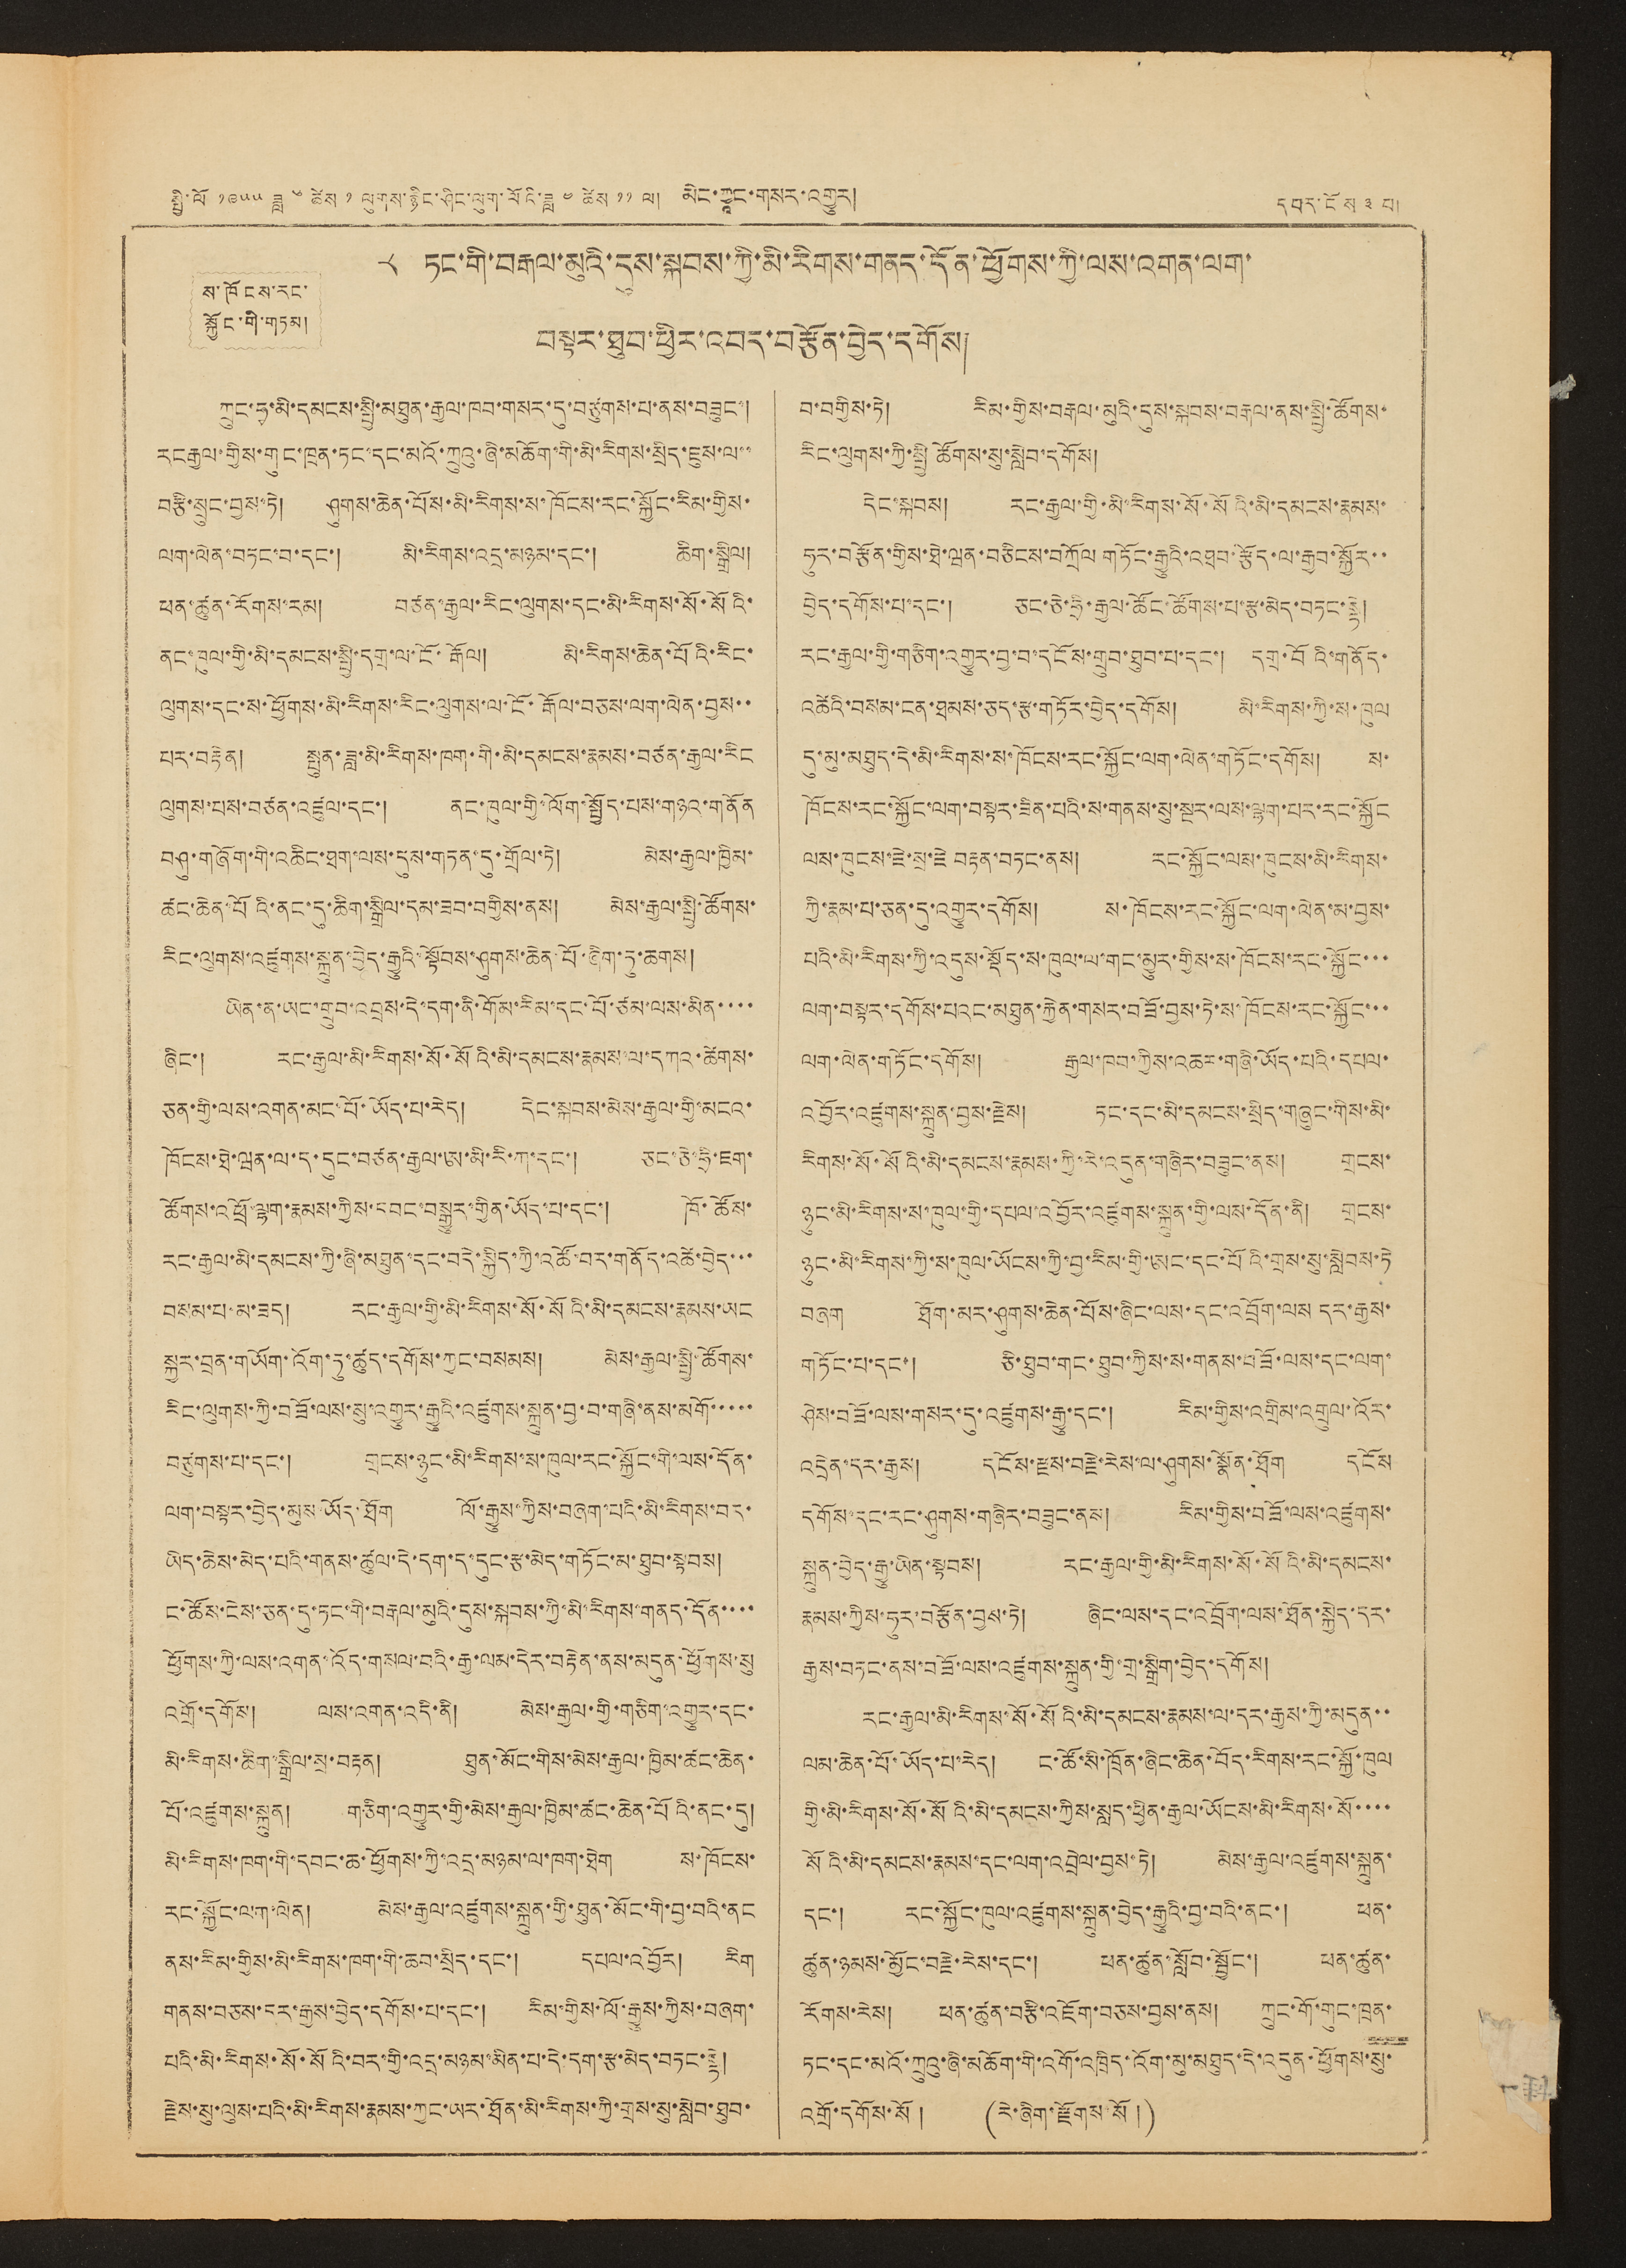སྤྱི་ལོ ༡༩༥༥ ཟླ ༦ ཚེས ༡ ལུགས་རྙིང་ཤིང་ལུག་ལོའི་ཟླ ༤ ཚེས ༡༡ ལ། མིང་ཀྱཱང་གསར་འགྱུར། དཔར་ངོས་ ༣ པ།
ས་ཁོངས་རང་
སྐྱོང་གི་གཏམ།
༨ ཏང་གི་བརྒལ་མུའི་དུས་སྐབས་ཀྱི་མི་རིགས་གནད་དོན་ཕྱོགས་ཀྱི་ལས་འགན་ལག་
བསྟར་ཐུབ་ཕྱིར་འབད་བརྩོན་བྱེད་དགོས།
ཀྲུང་ཧྭ་མི་དམངས་སྤྱི་མཐུན་རྒྱལ་ཁབ་གསར་དུ་བཙུགས་པ་ནས་བཟུང་།
རང རྒྱལ་གྱིས་གུང་ཁྲན་ཏང་དང་མའོ་ཀྲུའུ་ཞི་མཆོག་གི་མི་རིགས་སྲིད་ཇུས་ལ་་
བརྩི་སྲུང་བྱས་ཏེ། ཤུགས་ཆེན་པོས་མི་རིགས་ས་ཁོངས་རང་སྐྱོང་རིམ་གྱིས་
ལག་ལེན་བཏང་བ་དང་། མི་རིགས་འདྲ་མཉམ་དང་། ཆིག་སྒྲིལ།
ཕན་ཚུན་རིགས་རམ། བཙན་རྒྱལ་རིང་ལུགས་དང་མི་རིགས་སོ་སོའི་
ནང་ཁུལ་གྱི་མི་དམངས་སྤྱི་དགྲ་ལ་ངོ་རྒོལ། མི་རིགས་ཆེན་པོའི་རིང་
ལུགས་དང་ས་ཕྱོགས་མི་རིགས་རིང་ལུགས་ལ་ངོ་རྒོལ་བཅས་ལག་ལེན་བྱས་་
པར་བརྟེན། སྤུན་ཟླ་མི་རིགས་ཁག་གི་མི་དམངས་རྣམས་བཙན་རྒྱལ་རིང
ལུགས་པས་བཙན་འཛུལ་དང་། ནང་ཁུལ་གྱི་ལོག་སྤྱོད་པས་གཉའ་གནོན
བཤུ་གཞོག་གི་འཆིང་ཐག་ལས་དུས་གཏན་དུ་གྲོལ་ཏེ། མེས་རྒྱལ་ཁྱིམ་
ཚང་ཆེན་པོའི་ནང་དུ་ཆིག་སྒྲིལ་དམ་ཟབ་བགྱིས་ནས། མེས་རྒྱལ་སྤྱི་ཚོགས་
རིང་ལུགས་འཛུགས་སྐྲུན་བྱེད་རྒྱུའི་སྟོབས་ཤུགས་ཆེན་པོ་ཞིག་ཏུ་ཆགས།
ཡིན་ན་ཡང་གྲུབ་འབྲས་དེ་དག་ནི་གོམ་རིམ་དང་པོ་ཙམ་ལས་མིན་་་་
ཞིང་། རང་རྒྱལ་མི་རིགས་སོ་སོའི་མི་དམངས་རྣམས་ལ་དཀའ་ཚེགས་
ཅན་གྱི་ལས་འགན་མང་པོ་ཡོད་པ་རེད། དེང་སྐབས་མེས་རྒྱལ་གྱི་མངའ་
ཁོངས་ཐེ་ཝན་ལ་ད་དུང་བཙན་རྒྱལ་ཨ་མི་རི་ཀ་དང་། ཅང་ཅེ་ཧྲི་ཇག་
ཚོགས་འཕྲོ་ལྷག་རྣམས་ཀྱིས་དབང་བསྒྱུར་གྱིན་ཡོད་པ་དང་། ཁོ་ཚོས་
རང་རྒྱལ་མི་དམངས་ཀྱི་ཞི་མཐུན་དང་བདེ་སྐྱིད་ཀྱི་འཚོ་བར་གནོད་འཚེ་བྱེད་་་
བསམ་པ་མ་ཟད། རང་རྒྱལ་གྱི་མི་རིགས་སོ་སོའི་མི་དམངས་རྣམས་ཡང
སྐྱར་བྲན་གཡོག་འོག་ཏུ་ཚུད་དགོས་ཀྱང་བསམས། མེས་རྒྱལ་སྤྱི་ཚོགས་
རིང་ལུགས་ཀྱི་བཟོ་ལས་སུ་འགྱུར་རྒྱུའི་འཛུགས་སྐྲུན་བྱ་བ་གཞི་ནས་མགོ་་་་་
བཙུགས་པ་དང་། གྲངས་ཉུང་མི་རིགས་ས་ཁུལ་རང་སྐྱོང་གི་ལས་དོན་
ལག་བསྟར་བྱེད་མུས་ཡོད་ཐོག ལོ་རྒྱུས་ཀྱིས་བཞག་པའི་མི་རིགས་བར་
ཡིད་ཆེས་མེད་པའི་གནས་ཚུལ་དེ་དག་ད་དུང་རྩ་མེད་གཏོང་མ་ཐུབ་སྟབས།
ང་ཚོས་ངེས་ཅན་དུ་ཏང་གི་བརྒལ་མུའི་དུས་སྐབས་ཀྱི་མི་རིགས་གནད་དོན་་་་
ཕྱོགས་ཀྱི་ལས་འགན་འོད་གསལ་བའི་རྒྱ་ལམ་དེར་བརྟེན་ནས་མདུན་ཕྱོགས་སུ
འགྲོ་དགོས། ལས་འགན་འདི་ནི། མེས་རྒྱལ་གྱི་གཅིག་འགྱུར་དང་
མི་རིགས་ཆིག་སྒྲིལ་སྲ་བརྟན། ཐུན་མོང་གིས་མེས་རྒྱལ་ཁྱིམ་ཚང་ཆེན་
པོ་འཛུགས་སྐྲུན། གཅིག་འགྱུར་གྱི་མེས་རྒྱལ་ཁྱིམ་ཚང་ཆེན་པོའི་ནང་དུ།
མི་རིགས་ཁག་གི་དབང་ཆ་ཕྱོགས་ཀྱི་འདྲ་མཉམ་ལ་ཁག་ཐེག ས་ཁོངས་
རང་སྐྱོང་ལག་ལེན། མེས་རྒྱལ་འཛུགས་སྐྲུན་གྱི་ཐུན་མོང་གི་བྱ་བའི་ནང
ནས་རིམ་གྱིས་མི་རིགས་ཁག་གི་ཆབ་སྲིད་དང་། དཔལ་འབྱོར། རིག
གནས་བཅས་དར་རྒྱས་བྱེད་དགོས་པ་དང་། རིམ་གྱིས་ལོ་རྒྱུས་ཀྱིས་བཞག་
པའི་མི་རིགས་སོ་སོའི་བར་གྱི་འདྲ་མཉམ་མིན་པ་དེ་དག་རྩ་མེད་བཏང་སྟེ།
རྗེས་སུ་ལུས་པའི་མི་རིགས་རྣམས་ཀྱང་ཡར་ཐོན་མི་རིགས་ཀྱི་གྲས་སུ་སླེབ་ཐུབ་
བ་བགྱིས་ཏེ། རིམ་གྱིས་བརྒལ་མུའི་དུས་སྐབས་བརྒལ་ནས་སྤྱི་ཚོགས་
རིང་ལུགས་ཀྱི་སྤྱི ཚོགས་སུ་སླེབ་དགོས།
དེང་སྐབས། རང་རྒྱལ་གྱི་མི་རིགས་སོ་སོའི་མི་དམངས་རྣམས་
ཧུར་བརྩོན་གྱིས་ཐེ་ཝན་བཅིངས་བཀྲོལ གཏོང་རྒྱུའི་འཐབ་རྩོད་ལ་རྒྱབ་སྐྱོར་་
བྱེད་དགོས་པ་དང་། ཅང་ཅེ་ཧྲི་རྒྱལ་ཚོང་ཚོགས་པ་རྩ་མེད་བཏང་སྟེ།
རང་རྒྱལ་གྱི་གཅིག་འགྱུར་བྱ་བ་དངོས་གྲུབ་ཐུབ་པ་དང་། དགྲ་བོའི་གནོད་
འཚེའི་བསམ་ངན་ཐམས་ཅད་རྩ་གཏོར་བྱེད་དགོས། མི་རིགས་ཀྱི་ས་ཁུལ
དུ་མུ་མཐུད་དེ་མི་རིགས་ས་ཁོངས་རང་སྐྱོང་ལག་ལེན་གཏོང་དགོས། ས་
ཁོངས་རང་སྐྱོང་ལག་བསྟར་ཟིན་པའི་ས་གནས་སུ་སྔར་ལས་ལྷག་པར་རང་སྐྱོང
ལས་ཁུངས་ཇེ་སྲ་རྗེ བརྟན་བཏང་ནས། རང་སྐྱོང་ལས་ཁུངས་མི་རིགས་
ཀྱི་རྣམ་པ་ཅན་དུ་འགྱུར་དགོས། ས་ཁོངས་རང་སྐྱོང་ལག་ལེན་མ་བྱས་
པའི་མི་རིགས་ཀྱི་འདུས་སྡོད་ས་ཁུལ་ལ་གང་མྱུར་གྱིས་ས་ཁོངས་རང་སྐྱོང་་་
ལག་བསྟར་དགོས་པའང་མཐུན་རྐྱེན་གསར་བཟོ་བྱས་ཏེ་ས་ཁོངས་རང་སྐྱོང་་་
ལག་ལེན་གཏོང་དགོས། རྒྱལ་ཁབ་ཀྱིས་འཆར་གཞི་ཡོད་པའི་དཔལ་
འབྱོར་འཛུགས་སྐྲུན་བྱས་རྗེས། ཏང་དང་མི་དམངས་སྲིད་གཞུང་གིས་མི་
རིགས་སོ་སོའི་མི་དམངས་རྣམས་ཀྱི་རེ་འདུན་གཞིར་བཟུང་ནས། གྲངས་
ཉུང་མི་རིགས་ས་ཁུལ་གྱི་དཔལ་འབྱོར་འཛུགས་སྐྲུན་གྱི་ལམ་དོན་ནི། གྲངས་
ཉུང་མི་རིགས་ཀྱི་ས་ཁུལ་ཡོངས་ཀྱི་བྱ་རིམ་གྱི་ཨང་དང་པོའི་གྲས་སུ་སླེབས་ཏེ
བཞག ཐོག་མར་ཤུགས་ཆེན་པོས་ཞིང་ལས་དང་འབྲོག་ལས དར་རྒྱས་
གཏོང་པ་དང་། ཅི་ཐུབ་གང་ཐུབ་ཀྱིས་ས་གནས་བཟོ་ལས་དང་ལག་
ཤེས་བཟོ་ལས་གསར་དུ་འཛུགས་རྒྱུ་དང་། རིམ་གྱིས་འགྲིམ་འགྲུལ་འོར་
འདྲེན་དར་རྒྱས། དངོས་རྫས་བརྗེ་རེས་ལ་ཤུགས་སྣོན་ཐོག དངོས
དགོས་དང་རང་ཤུགས་གཞིར་བཟུང་ནས། རིམ་གྱིས་བཟོ་ལས་འཛུགས་
སྐྲུན་བྱེད་རྒྱུ་ཡིན་སྟབས། རང་རྒྱལ་གྱི་མི་རིགས་སོ་སོའི་མི་དམངས་
རྣམས་ཀྱིས་ཧུར་བརྩོན་བྱས་ཏེ། ཞིང་ལས་དང་འབྲོག་ལས་ཐོན་སྐྱེད་དར་
རྒྱས་བཏང་ནས་བཟོ་ལས་འཛུགས་སྐྲུན་གྱི་གྲ་སྒྲིག་བྱེད་དགོས།
རང་རྒྱལ་མི་རིགས་སོ་སོའི་མི་དམངས་རྣམས་ལ་དར་རྒྱས་ཀྱི་མདུན་་
ལམ་ཆེན་པོ་ཡོད་པ་རེད། ང་ཚོ་སི་ཁྲོན་ཞིང་ཆེན་བོད་རིགས་རང་སྐྱོ་ཁུལ
གྱི་མི་རིགས་སོ་སོའི་མི་དམངས་ཀྱིས་སླད་ཕྱིན་རྒྱལ་ཡོངས་མི་རིགས་སོ་་་་
སོའི་མི་དམངས་རྣམས་དང་ལག་འབྲེལ་བྱས་ཏེ། མེས་རྒྱལ་འཛུགས་སྐྲུན་
དང་། རང་སྐྱོང་ཁུལ་འཛུགས་སྐྲུན་བྱེད་རྒྱུའི་བྱ་བའི་ནང་། ཕན་
ཚུན་ཉམས་མྱོང་བརྗེ་རེས་དང་། ཕན་ཚུན་སློབ་སྦྱོང་། ཕན་ཚུན་
རོགས་རེས། ཕན་ཚུན་བརྩི་འཇོག་བཅས་བྱས་ནས། ཀྲུང་གོ་གུང་ཁྲན་
ཏང་དང་མའོ་ཀྲུའུ་ཞི་མཆོག་གི་འགོ་འཁྲིད་འོག་མུ་མཐུད་དེ་འདུན་ཕྱོགས་སུ་
འགྲོ་དགོས་སོ ། (རེ་ཞིག་རྫོགས་སོ །)
